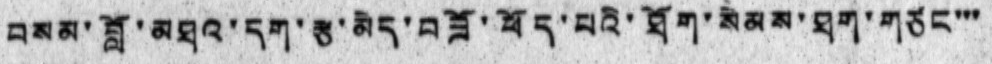བསམ་བློ་མཐའ་དག་རྩ་མེད་བཟོ་ཕོད་པའི་ཐོག་སེམས་ཐག་གཙང་་་
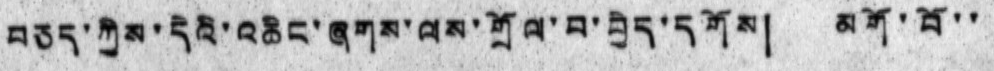བཅད་ཀྱིས་དེའི་འཆིང་ཞགས་ལས་གྲོལ་བ་བྱེད་དགོས། མགོ་བོ་་
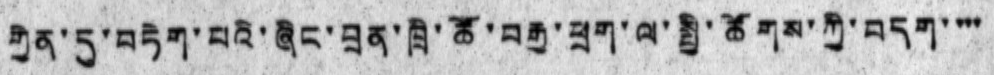གྱེན་དུ་བཏེག་པའི་ཞིང་བྲན་ཁྲི་ཚོ་བརྒྱ་ཕྲག་ལ་སྤྱི་ཚོགས་ཀྱི་བདག་་་་
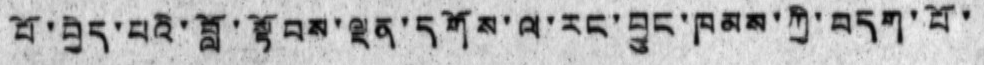པོ་བྱེད་པའི་བློ་སྟོབས་ལྡན་དགོས་ལ་རང་བྱུང་ཁམས་ཀྱི་བདག་པོ་
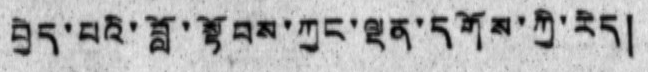བྱེད་པའི་བློ་སྟོབས་ཀྱང་ལྡན་དགོས་ཀྱི་རེད།
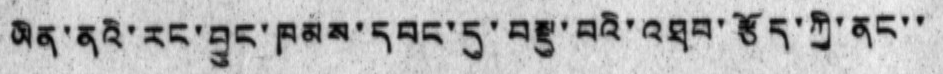ཡིན་ནའི་རང་བྱུང་ཁམས་དབང་དུ་བསྡུ་བའི་འཐབ་རྩོད་ཀྱི་ནང་་
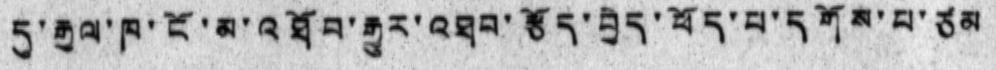དུ་རྒྱལ་ཁ་ངོ་མ་འཐོབ་རྒྱུར་འཐབ་རྩོད་བྱེད་ཕོད་པ་དགོས་པ་ཙམ
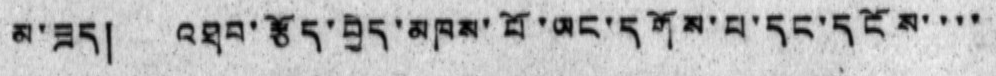མ་ཟད། འཐབ་རྩོད་བྱེད་མཁས་པོ་ཡང་དགོས་པ་དང་དངོས་་་་
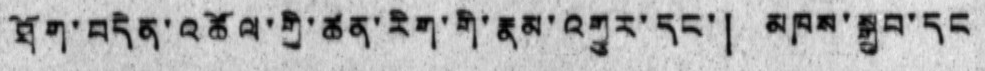ཐོག་བདེན་འཚོལ་གྱི་ཚན་རིག་གི་རྣམ་འགྱུར་དང་། མཁས་སྒྲུབ་དང
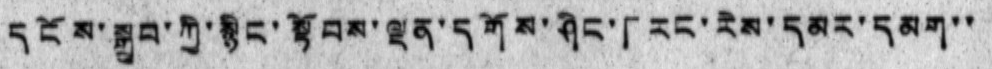དངོས་སྒྲུབ་ཀྱི་སྙིང་སྟོབས་ལྡན་དགོས་ཤིང་「རང་རེས་དམར་དམག་་
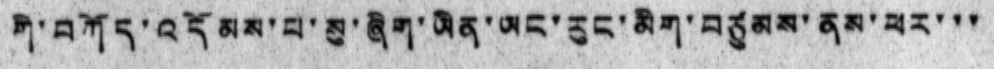གི་བཀོད་འདོམས་པ་སུ་ཞིག་ཡིན་ཡང་རུང་མིག་བཙུམས་ནས་ཕར་་་
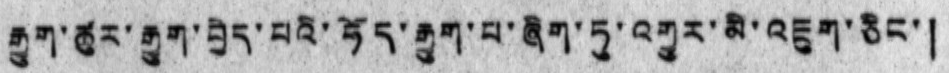རྒྱུག་ཚུར་རྒྱག་བྱེད་པའི་ཧོད་རྒྱུག་པ་ཞིག་ཏུ་འགྱུར་མི་འཇུག་ཅིང་།
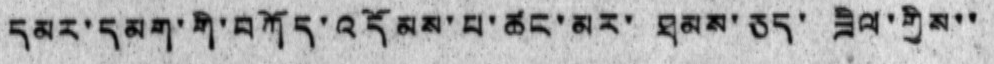དམར་དམག་གི་བཀོད་འདོམས་པ་ཚང་མར་ ཐམས་ཅད་ ཟིལ་གྱིས་་
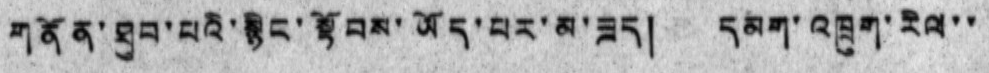གནོན་ཐུབ་པའི་སྙིང་སྟོབས་ཡོད་པར་མ་ཟད། དམག་འཁྲུག་རིལ་་
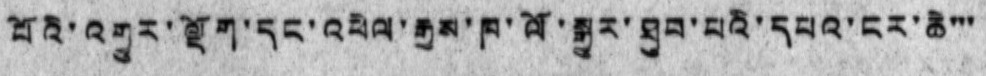པོའི་འགྱུར་ལྡོག་དང་འཕེལ་རྒྱས་ཁ་ལོ་སྒྱུར་ཐུབ་པའི་དཔའ་ངར་ཆེ་་་
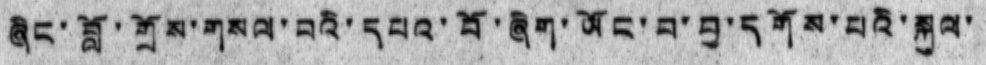ཞིང་བློ་གྲོས་གསལ་བའི་དཔའ་བོ་ཞིག་ཡོང་བ་བྱ་དགོས་པའི་སྐུལ་
